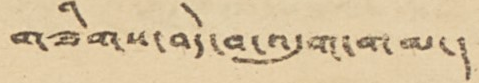གཟིགས་བདེ་བ་འདུག་གམ་།
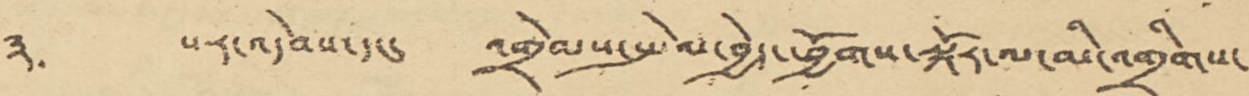༣་ སར་འདེབས་དང་ འགྲེམས་སྤེལ་བྱེད་ཕྱོགས་སྐོར་ལ་མི་འགྲིགས་
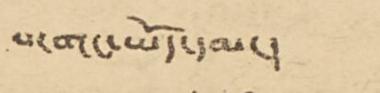པ་གང་ཡོད་དམ་།
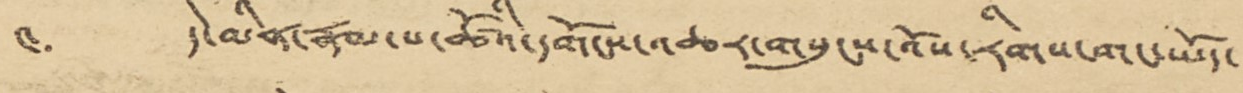༤་ དེ་མིན་རྣམ་པ་ཚོའི་དགོངས་འཆར་གསུངས་འོས་རིགས་གང་ཡོད་
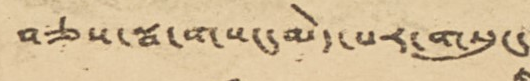བཅས་སྦ་གསང་མེད་པར་གསུང་
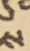ས
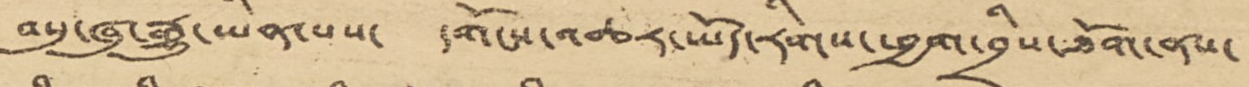བསུ་ཞུ་རྒྱུ་ཡིན་པས་ དགོངས་འཆར་ཡོད་རིགས་ཕྱག་བྲིས་ཐོག་ནས་
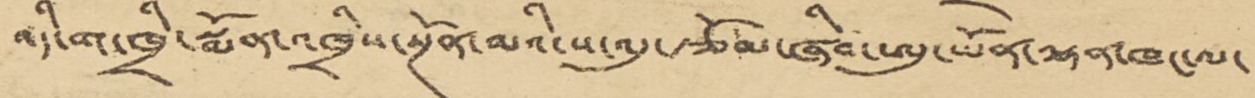འདི་ག་ཁྲི་སྨོན་འཁྲིས་སྔོན་མའི་ས་འདུ་རྩོམ་ཞིབ་ཨུ་ཡོན་ལྷན་ཁང་ལ་
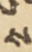ས
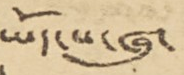ཡོད་པ་ཞུ་
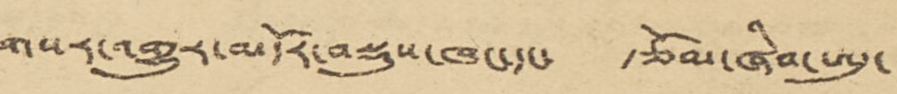གསར་འགྱུར་མདོར་བསྡུས་ཁང་དང་ རྩོམ་ཞིབ་ཨུ་
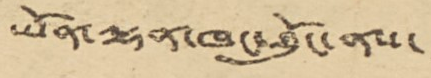ཡོན་ལྷན་ཁང་ཐོུང་ནས་
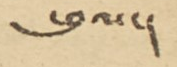ཕུལ་།
